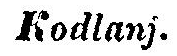Kodlanj.
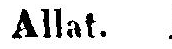Allat.
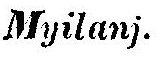Myilanj.
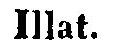Illat.
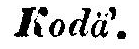Kodä'.
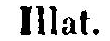Illat.
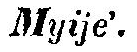Myije'.
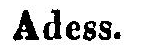Adess.
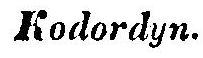Kodordyn.
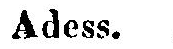Adess.
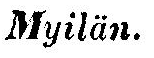Myilän.
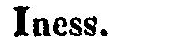Iness.
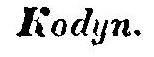Kodyn.
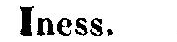Iness.
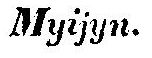Myijyn.
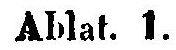Ablat. 1.
